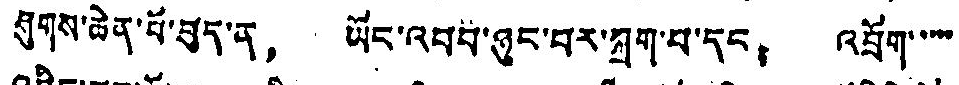ཤུགས་ཆེན་པོ་བུད་ན， ཡོང་འབབ་ཉུང་བར་སྲུག་པ་དང， འབྲོག་་་་་
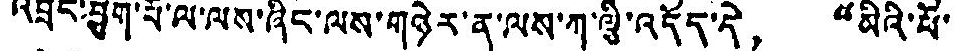འབྲིང་ཕྱུག་པོ་ལ་ལས་ཞིང་ལས་གཉེར་ན་ལས་ཀ་ལྕི་འདོད་དེ， “མིའི་པོ་
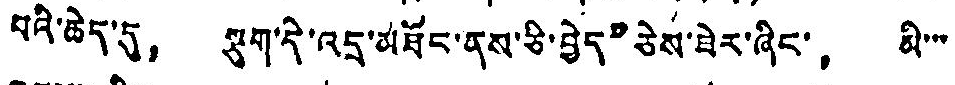བའི་ཆེད་དུ， སྡུག་དེ་འདྲ་མཐོང་ནས་ཅི་བྱེད”ཅེས་ཐེར་ཞིང་， མི་་་་
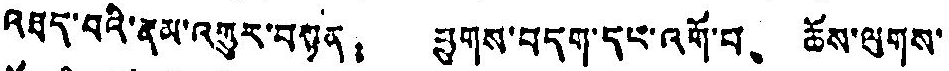འཐད་པའི་རྣམ་འགྱུར་བསྟན： ཕྱུགས་བདག་དང་འགོ་པ、 ཆོས་ལུགས་
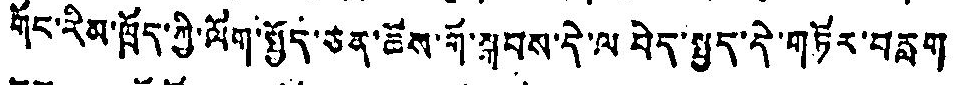གོང་རིམ་ཁྲོད་ཀྱི་ལོག་སྤྱོད་ཙན་ཆོས་གོ་སྐབས་དེ་ལ བེད་སྤྱད་དེ་གཏོར་བརླག
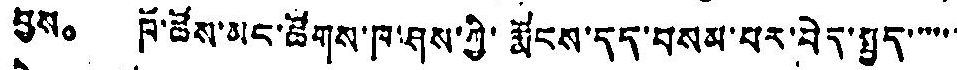བྱས。 ཁོ་ཚོས་མང་ཚོགས་ཁ་ཤས་ཀྱི་རྨོངས་དད་བསམ་པར་བེད་སྤྱད་་་་་
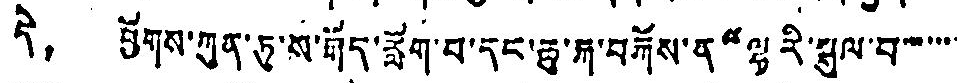དེ， ཕྱོགས་ཀུན་ཏུ་ས་རྒོད་རློག་པ་དང་ཆུ་རྐ་བརྐོས་ན“ལྷ རི་སུལ་བ་་་་་་་
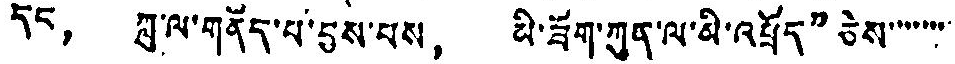དང， ཀླུ་ལ་གནོད་པ་བྱས་པས， མི་ཟོག་ཀུན་ལ་མི་འཕྲོད”ཅེས་་་་་་་་
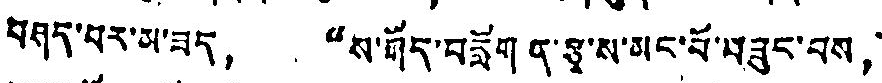བཤད་པར་མ་ཟད， “ས་རྒོད་བརློག ན་རྩྭ་ས་མང་པོ་བཟུང་བས་
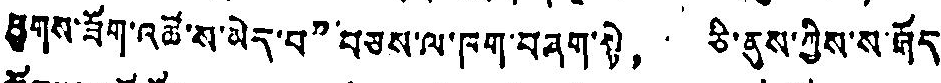ཕྱུགས་ཟོག་འཚེ་ས་མེད་པ”བཅས་ལ་ཁག་བཞག་སྟེ， ཅི་ནུས་ཀྱིས་ས་རྒོད་
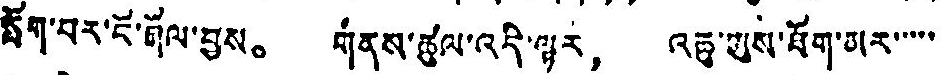རྡོག་པར་ངོ་རྒོལ་བྱས。 གནས་ཚུལ་འདི་ལྟར， འཆུ་ཡུས་ཐོག་མར་་་་་
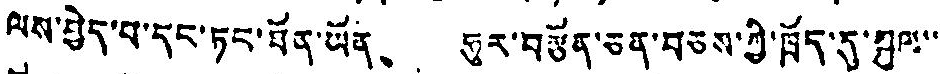ལས་བྱེད་པ་དང་ཏང་ཐོན་ཡོན、 ཧུར་བརྩོན་ཅན་བཅས་ཀྱི་ཁྲོད་དུ་ཀུལ་་
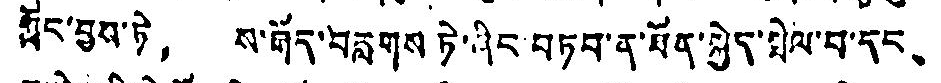ཐང་བྱས་ཏེ， ས་རྒོད་བརླགས ཏེ་ཤིང་བཏབ་ན་ཐོན་སྐྱེད་སྤེལ་བ་དང、
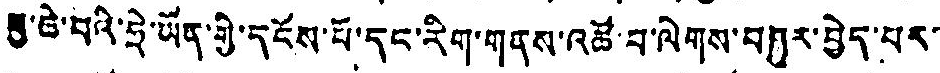རྒྱ་ཆེ་བའི་ཧྲེ་ཡོན་གྱི་དངོས་པོ་དང་རིག་གནས་འཚོ་བ་ལེགས་བཤུར་བྱེད་པར་
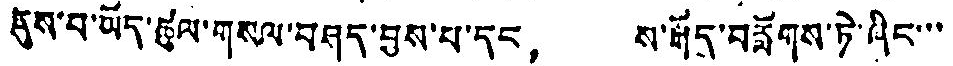དུས་པ་ཡོད་ཚུལ་གསལ་བཤད་བྱས་པ་དང， ས་རྒོད་བརློགས་ཏེ་ཞིང་་་
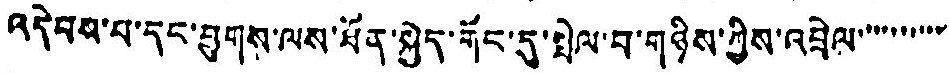འདེབས་པ་དང་བྱུགས་ལས་ཐོན་སྐྱེད་གོང་དུ་སྤེལ་བ་གཉིས་ཀྱིས་འབྲེལ་་་་་་་་་
